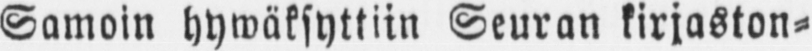Samoin hywäksyttiin Seuran kirjaston-
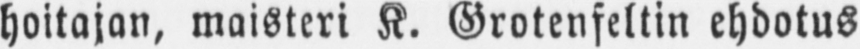hoitajan, maisteri K. Grotenfeltin ehdotus
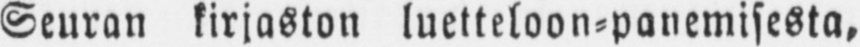Seuran kirjaston luetteloon-panemisesta,
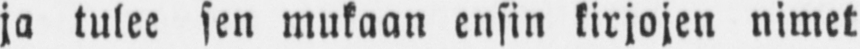ja tulee sen mukaan ensin kirjojen nimet
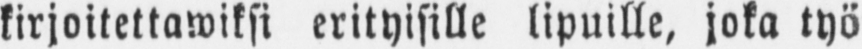kirjoitettawiksi erityisille lipuille, joka työ
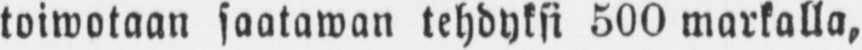toiwotaan säätäwän tehdyksi 500 markalla,
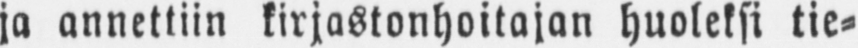ja annettiin kirjastonhoitajan huoleksi tie-
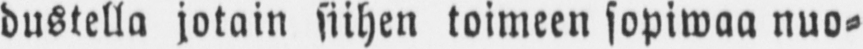dustella jotain siihen toimeen sopiwaa nuo-
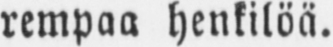rempaa henkilöä.
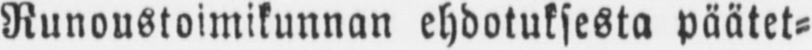Runoustoimikunnan ehdotuksesta päätet-
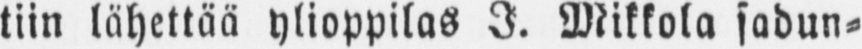tiin lähettää ylioppilas I. Mikkola sadun-
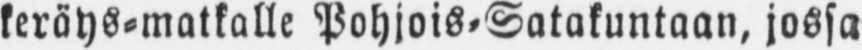keräys-matkalle Pohjois-Satakuntaan, jossa
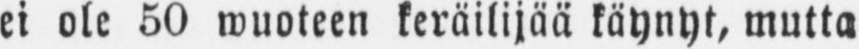ei ole 50 wuoteen keräilijää käynyt, mutta
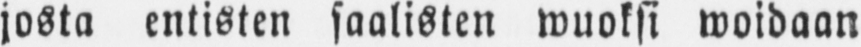josta entisten saalisten wuoksi woidaan
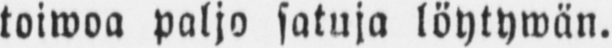toiwoa paljo satuja löytywän.
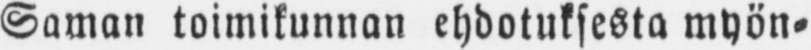Saman toimikunnan ehdotuksesta myön-
